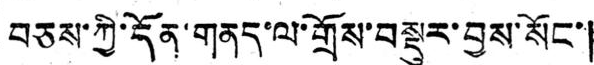བཅས་ཀྱི་དོན་གནད་ལ་གྲོས་བསྡུར་བྱས་སོང་།
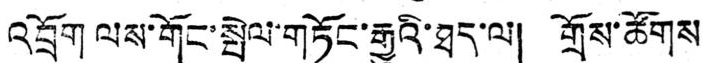འབྲོག ལས་གོང་སྤེལ་གཏོང་རྒྱུའི་ཐད་ལ། གྲོས་ཚོགས
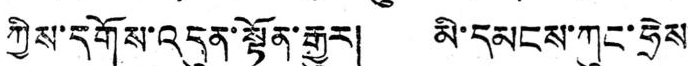ཀྱིས་དགོས་འདུན་སྟོན་རྒྱུར། མི་དམངས་ཀུང་ཧྲེས་
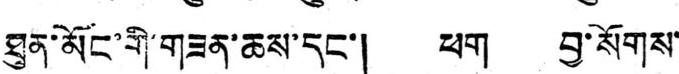ཐུན་མོང་གི་གཟན་ཆས་དང་། ཕག བྱ་སོགས་་
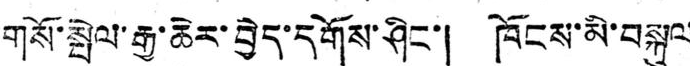གསོ་སྤེལ་རྒྱ་ཆེར་བྱེད་དགོས་ཤིང་། ཁོངས་མི་བསྐུལ
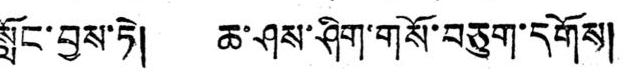སློང་བྱས་ཏེ། ཆ་ཤས་ཤིག་གསོ་བཅུག་དགོས།
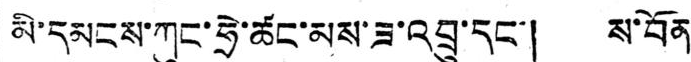མི་དམངས་ཀུང་ཧྲེ་ཚང་མས་ཟ་འབྲུ་དང་། ས་བོན་
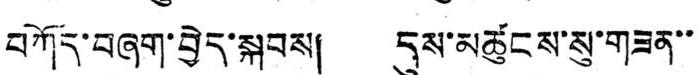བཀོད་བཞག་བྱེད་སྐབས། དུས་མཚུངས་སུ་གཟན་་
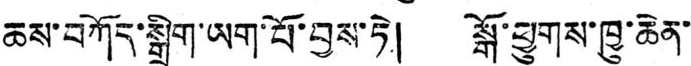ཆས་བཀོད་སྒྲིག་ཡག་པོ་བྱས་ཏེ། སྒོ་ཕྱུགས་ཁྱུ་ཆེན་
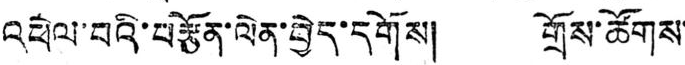འཕེལ་བའི་བརྩོན་ལེན་བྱེད་དགོས། གྲོས་ཚོགས་
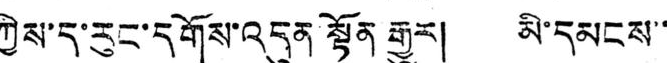ཀྱིས་ད་རུང་དགོས་འདུན་སྟོན རྒྱུར། མི་དམངས་་་
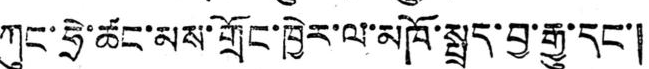ཀུང་ཧྲེ་ཚང་མས་གྲོང་ཁྱེར་ལ་མཁོ་སྤྲད་བྱ་རྒྱུ་དང་།
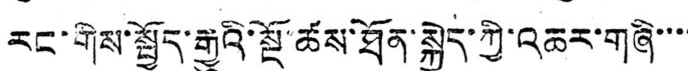རང་གིས་སྤྱོད་རྒྱུའི་སྔོ་ཚས་ཐོན་སྐྱེད་ཀྱི་འཆར་གཞི་་་་
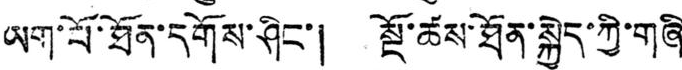ཡག་པོ་ཐོན་དགོས་ཤིང་། སྔོ་ཚས་ཐོན་སྐྱེད་ཀྱི་གཞི་
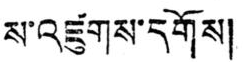ས་འཛུགས་དགོས།
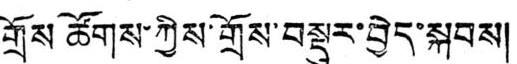གྲོས ཚོགས་ཀྱིས་གྲོས་བསྡུར་བྱེད་སྐབས།
